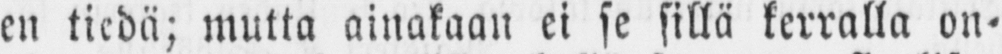en tiedä; mutta ainakaan ei se sillä kerralla on-
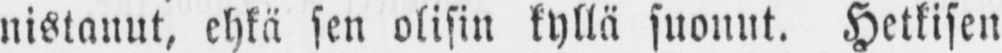nistanut, ehkä sen olisin kyllä suonut. Hetkisen
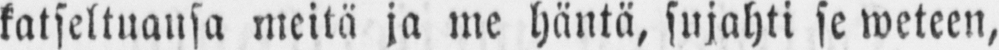katseltuansa meitä ja me häntä, sujahti se weteen,
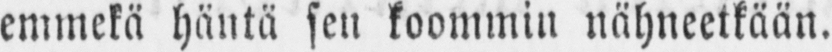emmekä häntä sen koommin nähneetkään.
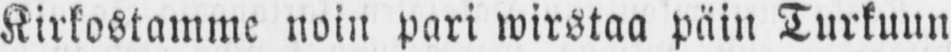Kirkostamme noin pari wirstaa päin Turkuun
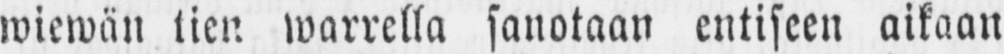wiewän tien warrella sanotaan entiseen aikaan
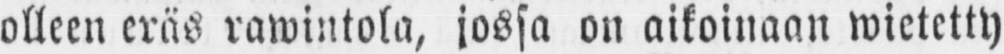olleen eräs rawintola, jossa on aikoinaan wietetty
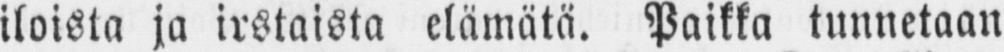iloista ja irstaista elämätä. Paikka tunnetaan
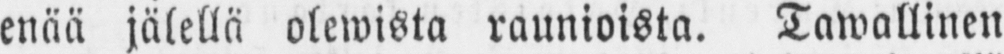enää jälellä olewista raunioista. Tawallinen
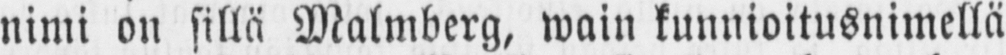nimi on sillä Malmberg, wain kunnioitusnimellä
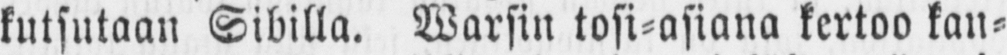kutsutaan Sibilla. Warsin tosi-asiana kertoo kan-
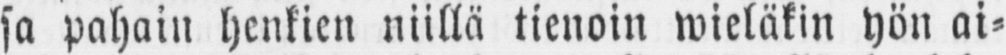sa pahain henkien niillä tienoin wieläkin yön ai-
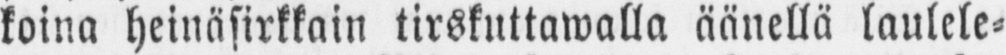koina heinäsirkkain tirskuttawalla äänellä laulele-
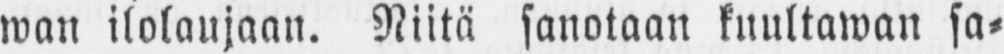wan ilolaujaan. Niitä sanotaan kuultawan sa-
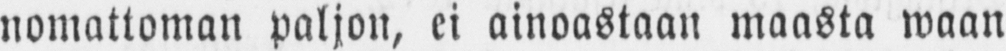nomattoman paljon, ei ainoastaan maasta waan
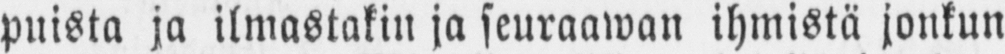puista ja ilmastakin ja seuraawan ihmistä jonkun
